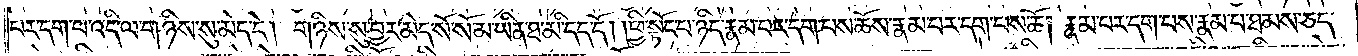པར་དག་པ་འདི་ལ་གཉིས་སུ་མེད་དེ། གཉིས་སུ་བྱར་མེད་སོ་སོ་མ་ཡིན་ཐ་མི་དད་དོ། །ཕྱི་སྟོང་པ་ཉིད་རྣམ་པར་དག་པས་ཆོས་རྣམ་པར་དག་པས་ཆོ། རྣམ་པར་དག་པས་རྣམ་པ་ཐམས་ཅད་
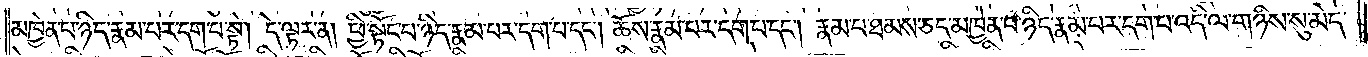མཁྱེན་པ་ཉིད་རྣམ་པར་དག་པ་སྟེ། དེ་ལྟར་ན། ཕྱི་སྟོང་པ་ཉིད་རྣམ་པར་དག་པ་དང༌། ཆོས་རྣམ་པར་དག་པ་དང༌། རྣམ་པ་ཐམས་ཅད་མཁྱེན་པ་ཉིད་རྣམ་པར་དག་པ་འདི་ལ་གཉིས་སུ་མེད་
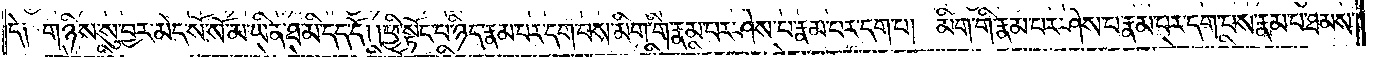དེ། གཉིས་སུ་བྱར་མེད་སོ་སོ་མ་ཡིན་ཐ་མི་དད་དོ། །ཕྱི་སྟོང་པ་ཉིད་རྣམ་པར་དག་པས་མིག་གི་རྣམ་པར་ཤེས་པ་རྣམ་པར་དག་པ། མིག་གི་རྣམ་པར་ཤེས་པ་རྣམ་པར་དག་པས་རྣམ་པ་ཐམས་
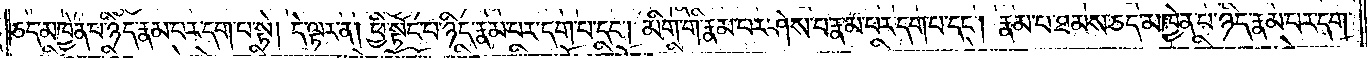ཅད་མཁྱེན་པ་ཉིད་རྣམ་པར་དག་པ་སྟེ། དེ་ལྟར་ན། ཕྱི་སྟོང་པ་ཉིད་རྣམ་པར་དག་པ་དང༌། མིག་གི་རྣམ་པར་ཤེས་པ་རྣམ་པར་དག་པ་དང༌། རྣམ་པ་ཐམས་ཅད་མཁྱེན་པ་ཉིད་རྣམ་པར་དག་
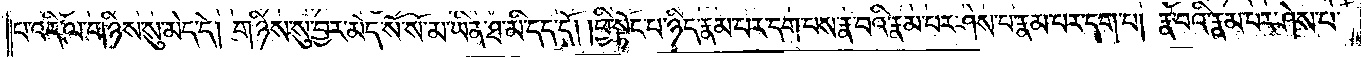པ་འདི་ལ་གཉིས་སུ་མེད་དེ། གཉིས་སུ་བྱར་མེད་སོ་སོ་མ་ཡིན་ཐ་མི་དད་དོ༑ ༑ཕྱི་སྟོང་པ་ཉིད་རྣམ་པར་དག་པས་རྣ་བའི་རྣམ་པར་ཤེས་པ་རྣམ་པར་དག་པ། རྣ་བའི་རྣམ་པར་ཤེས་པ་
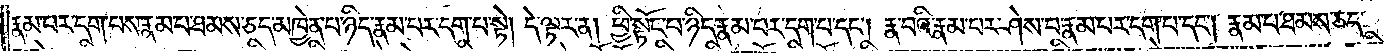རྣམ་པར་དག་པས་རྣམ་པ་ཐམས་ཅད་མཁྱེན་པ་ཉིད་རྣམ་པར་དག་པ་སྟེ། དེ་ལྟར་ན། ཕྱི་སྟོང་པ་ཉིད་རྣམ་པར་དག་པ་དང༌། རྣ་བའི་རྣམ་པར་ཤེས་པ་རྣམ་པར་དག་པ་དང༌། རྣམ་པ་ཐམས་ཅད་
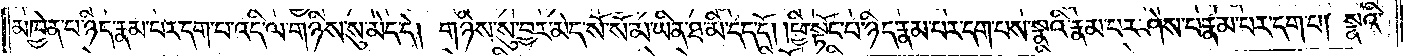མཁྱེན་པ་ཉིད་རྣམ་པར་དག་པ་འདི་ལ་གཉིས་སུ་མེད་དེ། གཉིས་སུ་བྱར་མེད་སོ་སོ་མ་ཡིན་ཐ་མི་དད་དོ། །ཕྱི་སྟོང་པ་ཉིད་རྣམ་པར་དག་པས་སྣའི་རྣམ་པར་ཤེས་པ་རྣམ་པར་དག་པ། སྣའི་
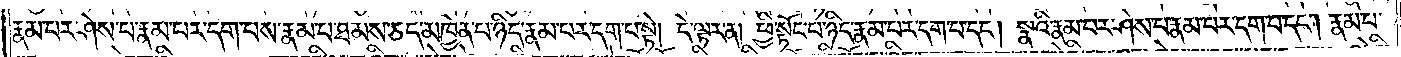རྣམ་པར་ཤེས་པ་རྣམ་པར་དག་པས་རྣམ་པ་ཐམས་ཅད་མཁྱེན་པ་ཉིད་རྣམ་པར་དག་པ་སྟེ། དེ་ལྟར་ན། ཕྱི་སྟོང་པ་ཉིད་རྣམ་པར་དག་པ་དང༌། སྣའི་རྣམ་པར་ཤེས་པ་རྣམ་པར་དག་པ་དང༌། རྣམ་པ་
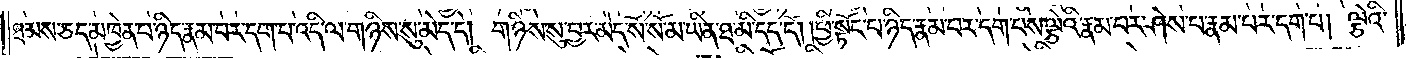ཐམས་ཅད་མཁྱེན་པ་ཉིད་རྣམ་པར་དག་པ་འདི་ལ་གཉིས་སུ་མེད་དེ། གཉིས་སུ་བྱར་མེད་སོ་སོ་མ་ཡིན་ཐ་མི་དད་དོ། །ཕྱི་སྟོང་པ་ཉིད་རྣམ་པར་དག་པས་ལྕེའི་རྣམ་པར་ཤེས་པ་རྣམ་པར་དག་པ། ལྕེའི་
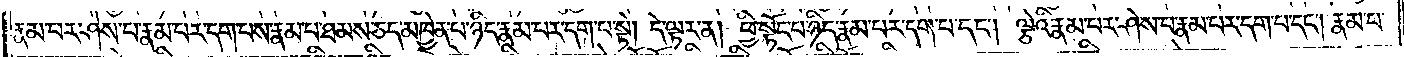རྣམ་པར་ཤེས་པ་རྣམ་པར་དག་པས་རྣམ་པ་ཐམས་ཅད་མཁྱེན་པ་ཉིད་རྣམ་པར་དག་པ་སྟེ། དེ་ལྟར་ན། ཕྱི་སྟོང་པ་ཉིད་རྣམ་པར་དག་པ་དང༌། ལྕེའི་རྣམ་པར་ཤེས་པ་རྣམ་པར་དག་པ་དང༌། རྣམ་པ་
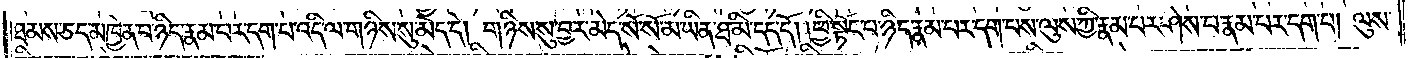ཐམས་ཅད་མཁྱེན་པ་ཉིད་རྣམ་པར་དག་པ་འདི་ལ་གཉིས་སུ་མེད་དེ། གཉིས་སུ་བྱར་མེད་སོ་སོ་མ་ཡིན་ཐ་མི་དད་དོ། །ཕྱི་སྟོང་པ་ཉིད་རྣམ་པར་དག་པས་ལུས་ཀྱི་རྣམ་པར་ཤེས་པ་རྣམ་པར་དག་པ། ལུས་
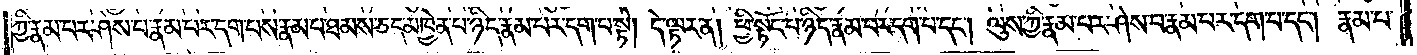ཀྱི་རྣམ་པར་ཤེས་པ་རྣམ་པར་དག་པས་རྣམ་པ་ཐམས་ཅད་མཁྱེན་པ་ཉིད་རྣམ་པར་དག་པ་སྟེ། དེ་ལྟར་ན། ཕྱི་སྟོང་པ་ཉིད་རྣམ་པར་དག་པ་དང༌། ལུས་ཀྱི་རྣམ་པར་ཤེས་པ་རྣམ་པར་དག་པ་དང༌། རྣམ་པ་
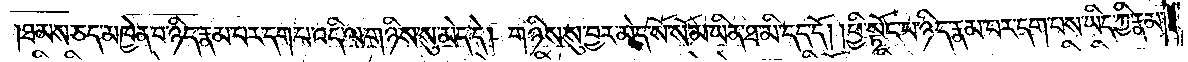ཐམས་ཅད་མཁྱེན་པ་ཉིད་རྣམ་པར་དག་པ་འདི་ལ་གཉིས་སུ་མེད་དེ། གཉིས་སུ་བྱར་མེད་སོ་སོ་མ་ཡིན་ཐ་མི་དད་དོ། །ཕྱི་སྟོང་པ་ཉིད་རྣམ་པར་དག་པས་ཡིད་ཀྱི་རྣམ་
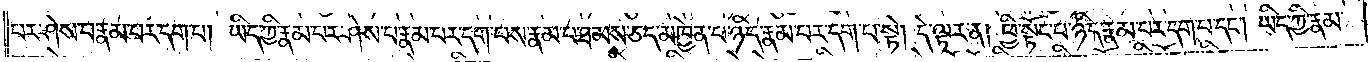པར་ཤེས་པ་རྣམ་པར་དག་པ། ཡིད་ཀྱི་རྣམ་པར་ཤེས་པ་རྣམ་པར་དག་པས་རྣམ་པ་ཐམས་ཅད་མཁྱེན་པ་ཉིད་རྣམ་པར་དག་པ་སྟེ། དེ་ལྟར་ན། ཕྱི་སྟོང་པ་ཉིད་རྣམ་པར་དག་པ་དང༌། ཡིད་ཀྱི་རྣམ་
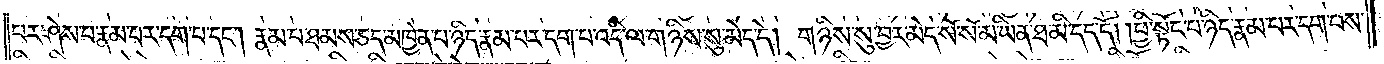པར་ཤེས་པ་རྣམ་པར་དག་པ་དང༌། རྣམ་པ་ཐམས་ཅད་མཁྱེན་པ་ཉིད་རྣམ་པར་དག་པ་འདི་ལ་གཉིས་སུ་མེད་དེ། གཉིས་སུ་བྱར་མེད་སོ་སོ་མ་ཡིན་ཐ་མི་དད་དོ། །ཕྱི་སྟོང་པ་ཉིད་རྣམ་པར་དག་པས་
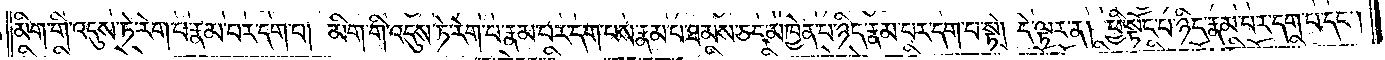མིག་གི་འདུས་ཏེ་རེག་པ་རྣམ་པར་དག་པ། མིག་གི་འདུས་ཏེ་རེག་པ་རྣམ་པར་དག་པས་རྣམ་པ་ཐམས་ཅད་མཁྱེན་པ་ཉིད་རྣམ་པར་དག་པ་སྟེ། དེ་ལྟར་ན། ཕྱི་སྟོང་པ་ཉིད་རྣམ་པར་དག་པ་དང༌།
